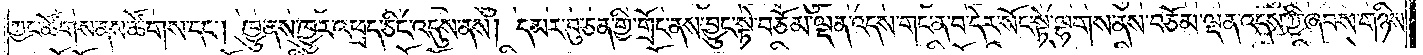ཀྱང་ཚོགས་ནས་ཚོགས་དང༌། ཁྱུ་ནས་ཁྱུར་འཕྲད་ཅིང་འདུས་ནས། དམར་བུ་ཅན་གྱི་གྲོང་ནས་བྱུང་སྟེ་བཅོམ་ལྡན་འདས་གང་ན་བ་དེར་སོང་སྟེ་ལྷགས་ནས་བཅོམ་ལྡན་འདས་ཀྱི་ཞབས་གཉིས་
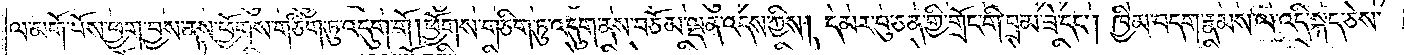ལ་མགོ་བོས་ཕྱག་བྱས་ནས་ཕྱོགས་གཅིག་ཏུ་འདུག་གོ །ཕྱོགས་གཅིག་ཏུ་འདུག་ནས་བཅོམ་ལྡན་འདས་ཀྱིས། དམར་བུ་ཅན་གྱི་གྲོང་གི་བྲམ་ཟེ་དང༌། ཁྱིམ་བདག་རྣམས་ལ་འདི་སྐད་ཅེས་
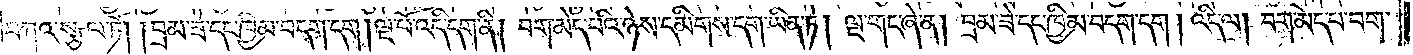བཀའ་སྩལ་ཏོ། །བྲམ་ཟེ་དང་ཁྱིམ་བདག་དག །ལྔ་པོ་འདི་དག་ནི། བག་མེད་པའི་ཉེས་དམིགས་དག་ཡིན་ཏེ། ལྔ་གང་ཞེ་ན། བྲམ་ཟེ་དང་ཁྱིམ་བདག་དག། འདི་ལ། བག་མེད་པ་བག་
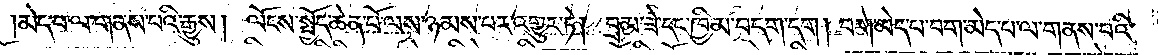མེད་པ་ལ་གནས་པའི་རྒྱུས། ལོངས་སྤྱོད་ཆེན་པོ་ལས་ཉམས་པར་འགྱུར་ཏེ། བྲམ་ཟེ་དང་ཁྱིམ་བདག་དག །བག་མེད་པ་བག་མེད་པ་ལ་གནས་པའི་
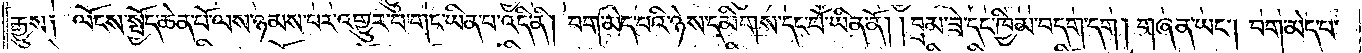རྒྱུས༑  ལོངས་སྤྱོད་ཆེན་པོ་ལས་ཉམས་པར་འགྱུར་བ་གང་ཡིན་པ་འདི་ནི། བག་མེད་པའི་ཉེས་དམིགས་དང་པོ་ཡིན་ནོ། །བྲམ་ཟེ་དང་ཁྱིམ་བདག་དག །གཞན་ཡང༌། བག་མེད་པ་
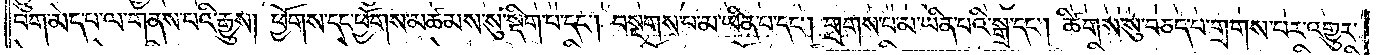བག་མེད་པ་ལ་གནས་པའི་རྒྱུས། ཕྱོགས་དང་ཕྱོགས་མཚམས་སུ་སྡིག་པ་དང༌། བསྔགས་པ་མ་ཡིན་པ་དང༌། གྲགས་པ་མ་ཡིན་པའི་སྒྲ་དང༌། ཚིགས་སུ་བཅད་པ་གྲགས་པར་འགྱུར་
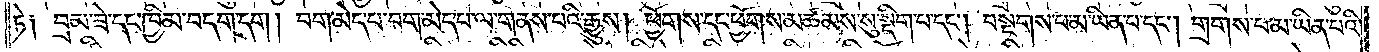ཏེ༑ བྲམ་ཟེ་དང་ཁྱིམ་བདག་དག །བག་མེད་པ་བག་མེད་པ་ལ་གནས་པའི་རྒྱུས། ཕྱོགས་དང་ཕྱོགས་མཚམས་སུ་སྡིག་པ་དང༌། བསྔགས་པ་མ་ཡིན་པ་དང༌། གྲགས་པ་མ་ཡིན་པའི་
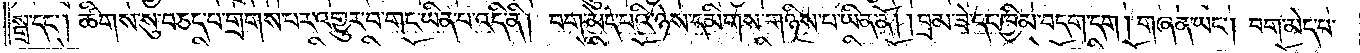སྒྲ་དང༌། ཚིགས་སུ་བཅད་པ་གྲགས་པར་འགྱུར་བ་གང་ཡིན་པ་འདི་ནི། བག་མེད་པའི་ཉེས་དམིགས་གཉིས་པ་ཡིན་ནོ། །བྲམ་ཟེ་དང་ཁྱིམ་བདག་དག །གཞན་ཡང༌། བག་མེད་པ་
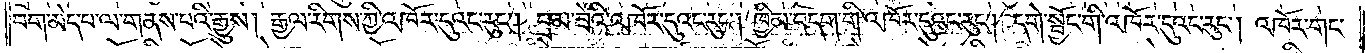བག་མེད་པ་ལ་གནས་པའི་རྒྱུས། རྒྱལ་རིགས་ཀྱི་འཁོར་དུའང་རུང༌། བྲམ་ཟེའི་འཁོར་དུའང་རུང༌། ཁྱིམ་བདག་གི་འཁོར་དུའང་རུང༌། དགེ་སྦྱོང་གི་འཁོར་དུའང་རུང༌། འཁོར་གང་
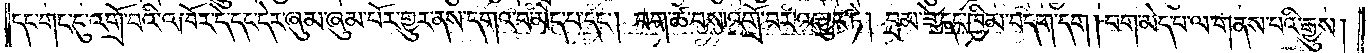དང་གང་དུ་འགྲོ་བའི་འཁོར་དེ་དང་དེར་ཞུམ་ཞུམ་པོར་གྱུར་ནས་དགའ་བ་མེད་པ་དང༌། བག་ཚ་བས་འགྲོ་བར་འགྱུར་ཏེ། བྲམ་ཟེ་དང་ཁྱིམ་བདག་དག །བག་མེད་པ་ལ་གནས་པའི་རྒྱུས།
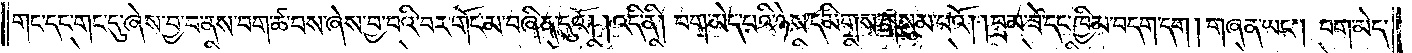གང་དང་གང་དུ་ཞེས་བྱ་བ་ནས་བག་ཚ་བས་ཞེས་བྱ་བའི་བར་གོང་མ་བཞིན་དུའོ། །འདི་ནི། བག་མེད་པའི་ཉེས་དམིགས་གསུམ་པའོ། །བྲམ་ཟེ་དང་ཁྱིམ་བདག་དག །གཞན་ཡང༌། བག་མེད་
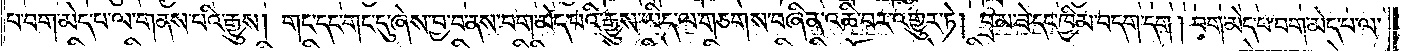པ་བག་མེད་པ་ལ་གནས་པའི་རྒྱུས། གང་དང་གང་དུ་ཞེས་བྱ་བ་ནས་བག་མེད་པའི་རྒྱུས་ཡིད་ལ་གཅགས་བཞིན་འཆི་བར་འགྱུར་ཏེ། བྲམ་ཟེ་དང་ཁྱིམ་བདག་དག །བག་མེད་པ་བག་མེད་པ་ལ་
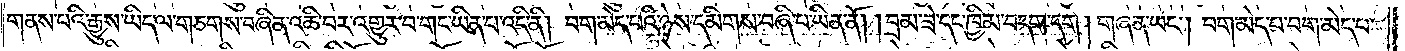གནས་པའི་རྒྱུས་ཡིད་ལ་གཅགས་བཞིན་འཆི་བར་འགྱུར་བ་གང་ཡིན་པ་འདི་ནི། བག་མེད་པའི་ཉེས་དམིགས་བཞི་པ་ཡིན་ནོ། །བྲམ་ཟེ་དང་ཁྱིམ་བདག་དག །གཞན་ཡང༌། བག་མེད་པ་བག་མེད་པ་
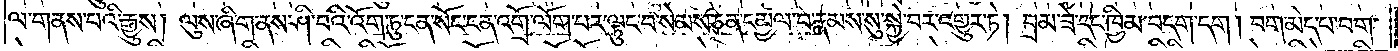ལ་གནས་པའི་རྒྱུས། ལུས་ཞིག་ནས་ཤི་བའི་འོག་ཏུ་ངན་སོང་ངན་འགྲོ་ལོག་པར་ལྟུང་བ་སེམས་ཅན་དམྱལ་བ་རྣམས་སུ་སྐྱེ་བར་འགྱུར་ཏེ། བྲམ་ཟེ་དང་ཁྱིམ་བདག་དག །བག་མེད་པ་བག་
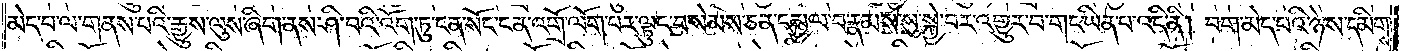མེད་པ་ལ་གནས་པའི་རྒྱུས་ལུས་ཞིག་ནས་ཤི་བའི་འོག་ཏུ་ངན་སོང་ངན་འགྲོ་ལོག་པར་ལྟུང་བ་སེམས་ཅན་དམྱལ་བ་རྣམས་སུ་སྐྱེ་བར་འགྱུར་བ་གང་ཡིན་པ་འདི་ནི། བག་མེད་པའི་ཉེས་དམིགས་
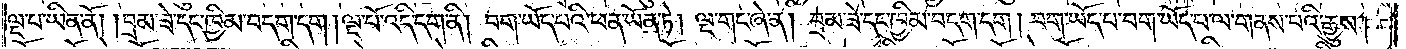ལྔ་པ་ཡིན་ནོ། །བྲམ་ཟེ་དང་ཁྱིམ་བདག་དག །ལྔ་པོ་འདི་དག་ནི། བག་ཡོད་པའི་ཕན་ཡོན་ཏེ། ལྔ་གང་ཞེ་ན། བྲམ་ཟེ་དང་ཁྱིམ་བདག་དག །བག་ཡོད་པ་བག་ཡོད་པ་ལ་གནས་པའི་རྒྱུས།
